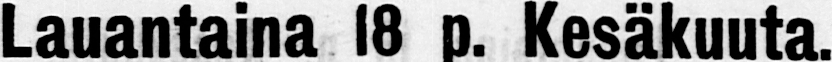Lauantaina 18 p. Kesäkuuta.
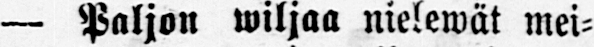— Paljon wiljaa nielewät mei-
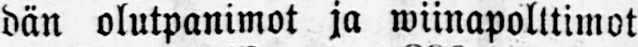dän olutpanimot ja wiinapolttimot
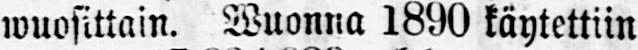wuosittain. Wuonna 1890 käytettiin
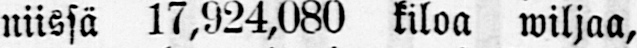niissä 17,924,080 kiloa wiljaa,
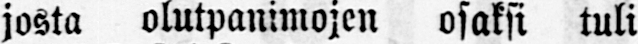josta olutpanimojen osaksi tuli
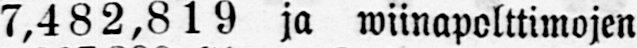7,482,819 ja wiinapolttimojen
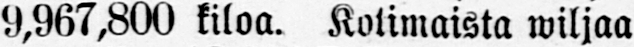9,967,800 kiloa. Kotimaista wiljaa
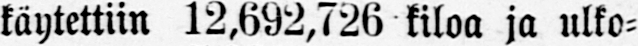käytettiin 12,692,726 kiloa ja ulko-
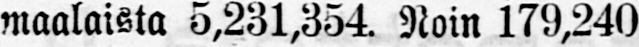maalaista 5,231,354. Noin 179,240
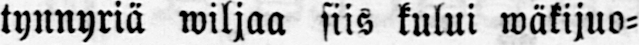tynnyriä wiljaa siis kului wäkijuo-
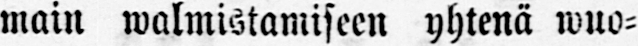main walmistamiseen yhtenä wuo-
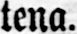tena.
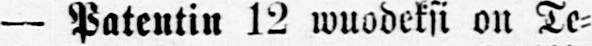— Patentin 12 wuodeksi on Te-
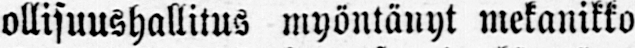ollisuushallitus myöntänyt mekanikko
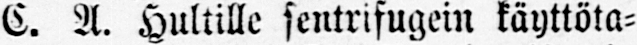E. A. Hultille sentrifugein käyttöta-
